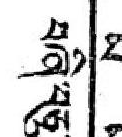བཞི་བཅུ་
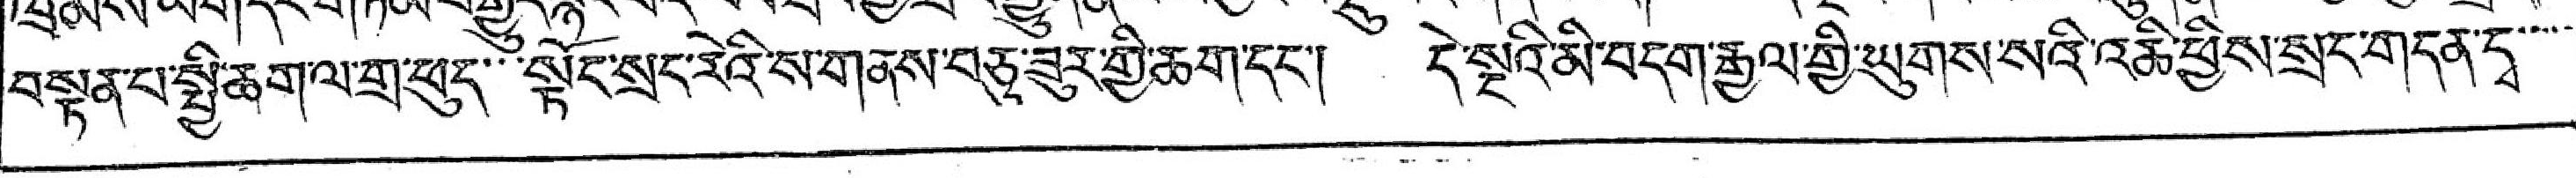བསྟན་པ་སྤྱི་ཆག་ལ་གྲ་ཕུད་་་སྟོང་སྲང་རེའི་ས་གནས་བཅུ་ཟུར་གྱི་ཆག་དང་། དེ་སྔའི་མི་བདག་རྒྱལ་གྱི་ཡུགས་སའི་འཆི་ཕྱིས་སྲང་གདན་དྭ་་་་
